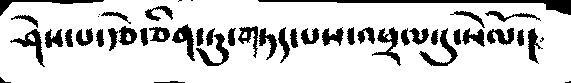ཤེས་པ་རྩེ་ཅིག་ཏུ་གཏད་པས་འཕྲལ་དུ་སེལོ་།
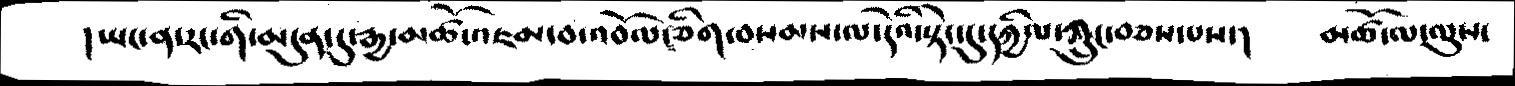།ཡང་ན་རང་གི་མདུན་དུ་རྒྱ་མཚོ་འཇམ་བ་འབོལ་བ་ཅིག་བསམས་ལ་དེའི་སྟེང་དུ་དཀྱིལ་ཀྲུང་བཅས་པས་།  མཚོ་ལ་ལུས་
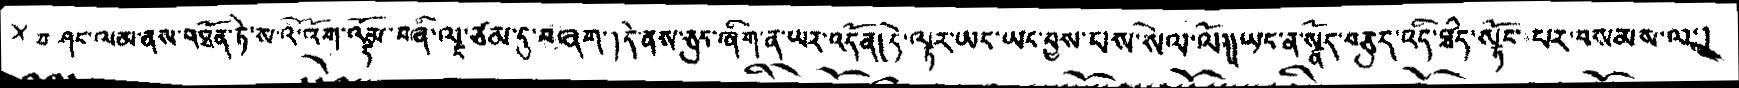བཤང་ལམ་ནས་འཐོན་ཏེ་ས་འི་འོག་འདོམ་བཞི་ལྔ་ཙམ་དུ་བཞག་།དེ་ནས་ཅུང་ཞིག་ན་ཡར་འདོན།དེ་ལྟར་ཡང་ཡང་བྱས་པས་སེལ་ལོ།།ཡང་ན་སྣོད་བཅུད་འདི་ཐདཾ་སྟོང་པར་བསམས་ལ་།
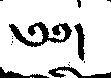༄༅།
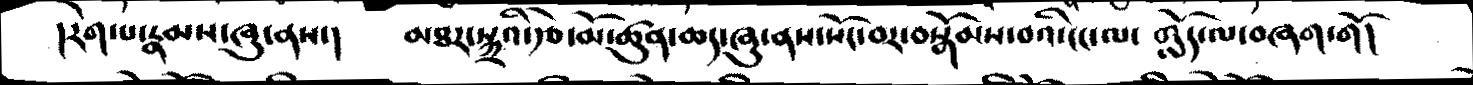།རེག་པ་རྣམས་ཞུ་ནས་།   མཐར་སྐྲའི་རྩེ་མོ་ཚུན་ཆད་ཞུ་ནས་སོང་བར་བསྒོམས་བའི་ངང་ལ་གློད་ལ་བཞག་གོ།
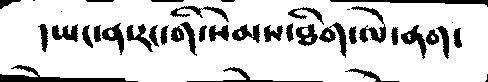།ཡང་ན་རང་གི་སེམས་ཐིག་ལེ་ནག་
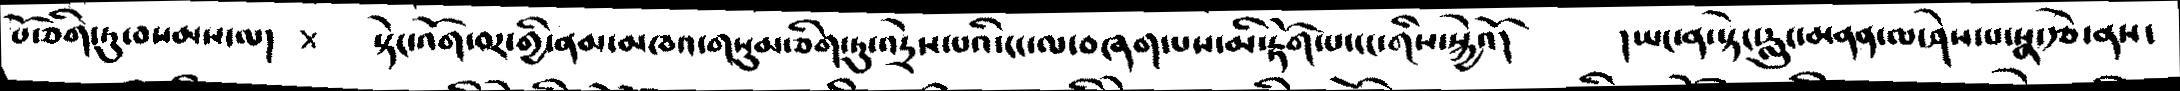པོ་ཅིག་ཏུ་བསམས་ལ།   སྟེང་འོག་བར་གྱི་ནམ་མཁའ་གསུམ་ཅིག་ཏུ་འདྲེས་པའི་ངང་ལ་བཞག་པས་མི་རྟོག་པ་ངང་གིས་སྐྱེའོ།    །ཡང་ན་སྟེང་རླུང་མནན་ལ་ཤེས་པ་སྣ་རྩེ་ནས་
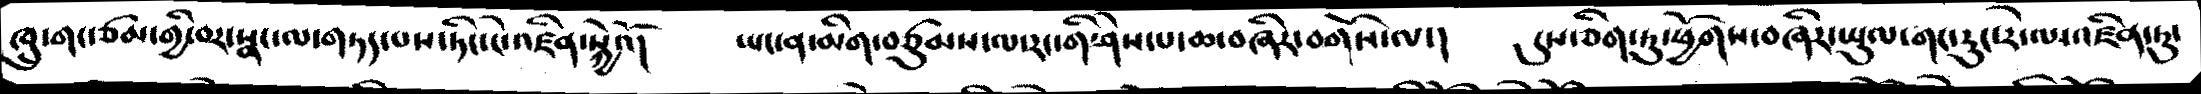ཁྲུ་གང་ཙམ་གྱི་བར་སྣང་ལ་གཏད་པས་ཏིང་ངེ་འཛིན་སྐྱེའོ།    ཡང་ན་མིག་བཙུམས་ལ་རང་གི་ཤེས་པ་ཆ་བཞིར་བགོས་ལ།    དུས་ཅིག་ཏུ་ཕྱོགས་བཞིར་ཡུལ་གང་རུང་རེ་ལ་འཛིན་ཏུ་
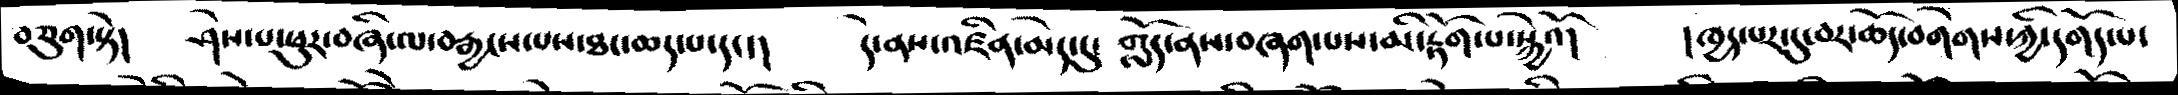བཅུག་སྟེ།    ཤེས་པ་ཕུར་བཞི་ལ་བརྒྱངས་པས་ཐང་ཆད་པ་དང་།    དེ་ནས་འཛིན་མེད་དུ་གློད་ནས་བཞག་པས་མི་རྟོག་པ་སྐྱེའོ།    །ཁྱད་པར་དུ་བར་ཆོད་བགེགས་ཀྱི་དགོད་པ་
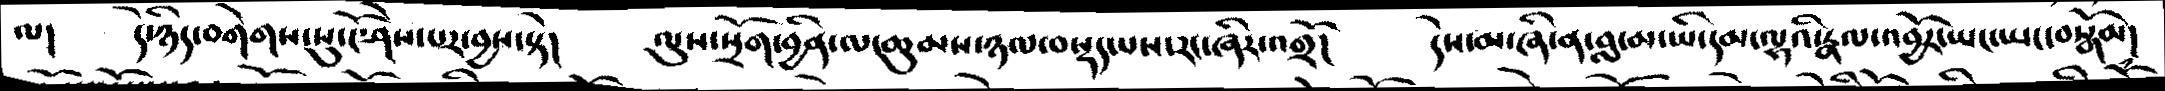ལ།  དེ་ཉིད་བགེགས་སུ་ངོ་ཤེས་པར་བྱས་སྟེ།    ལུས་སྲོག་བྱིན་ལ་ཆུམས་ཉལ་བསྡད་པས་རང་ཞིར་འགྲོ།   དེས་མ་ཞི་ན་བླ་མ་ཡི་དམ་ལྷའི་རྣལ་འབྱོར་ཡང་ཡང་བསྒོམ།
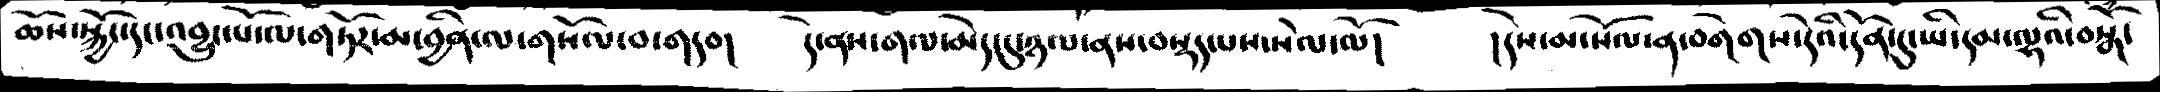ཆོས་སྐྱོང་དང་འབྱུང་པོ་ལ་གཏོར་མ་བྱིན་ལ་གསོལ་བ་གདབ།    དེ་ནས་གལ་མེད་དུ་ཉལ་ནས་བསྡད་པས་སེལ་ལོ།    །དེས་མ་སོལ་ན་བགེགས་དེའི་དོན་དུ་ཡི་དམ་ལྷའི་བསྒོཾ་
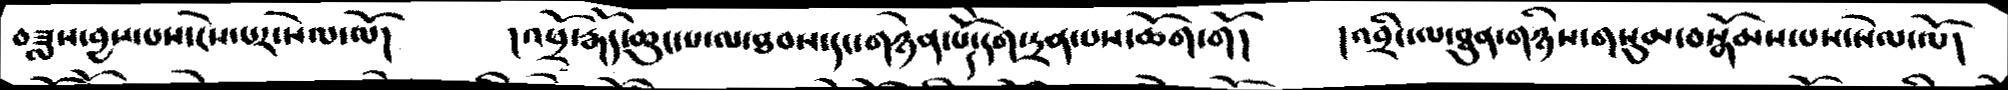བཟླས་བྱས་པས་ངེས་པར་སེལ་ལོ།   །འཕྲོ་རྒོད་ཆུང་པ་ལ་ཐབས་དང་གཉེན་པོ་དེ་དག་དྲན་པས་ཆོག་གོ།   །འབྲིང་ལ་ཐུན་གཉིས་གསུམ་བསྒོམས་པས་སེལ་ལོ།
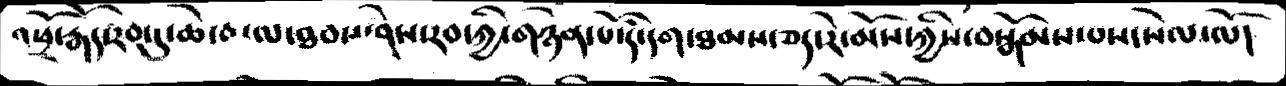འཕྲོ་རྒོད་རབ་དུ་ཆེ་བ་ལ་ཐབས་ཤེས་རབ་ཀྱི་གཉེན་པོ་དེ་དག་ཐམས་ཅད་རེ་མོས་ཀྱིས་བསྒོམས་པས་སེལ་ལོ།
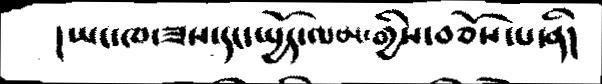།ཡང་ཁ་ཟས་དང་སྤྱོད་ལམ་གྱིས་བཅོས་པ་ནི།
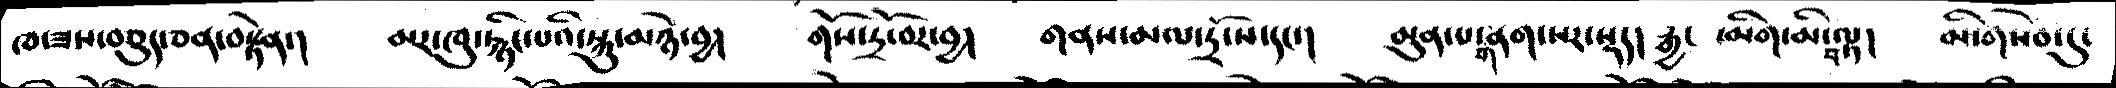ཁ་ཟས་བཅུད་ཅན་བསྟེན་།   མར་ཁུ་རྙིང་པའི་སྐུ་མཉེ་བྱ།   གོས་དྲོ་བར་བྱ།   གནས་མལ་དྲོ་ས་དང་།   མུན་པ་གནག་སར་སྡད།   རྒྱང་མིག་མི་བལྟ།   མི་གསེབ་དུ་
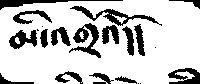མི་འགྲོའོ།།
